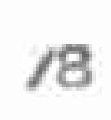18
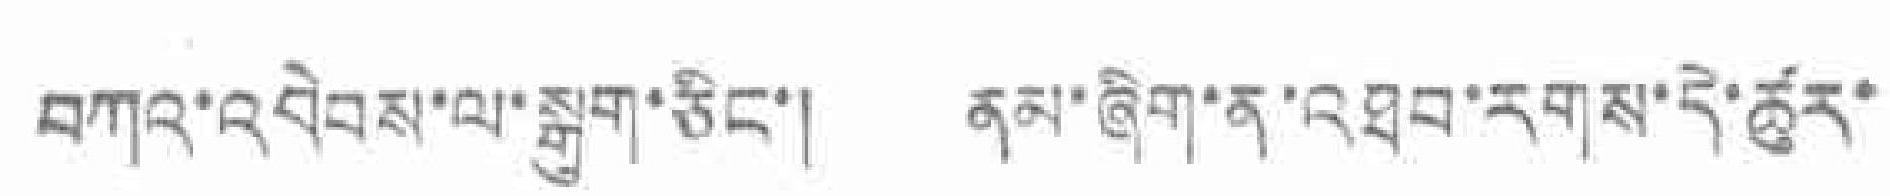བཀའ་འབེབས་ལ་སྒུག་ཅིང་། ནམ་ཞིག་ན་འཐབ་རགས་དེ་ཚུར་
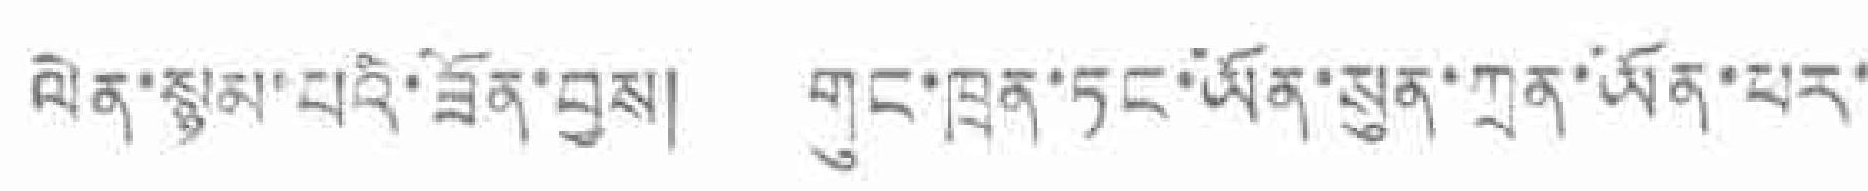ལེན་སྙམ་པའི་ཟོན་བྱས། གུང་ཁྲན་ཏང་ཡོན་སུན་ཀྲན་ཡོན་ཕར་
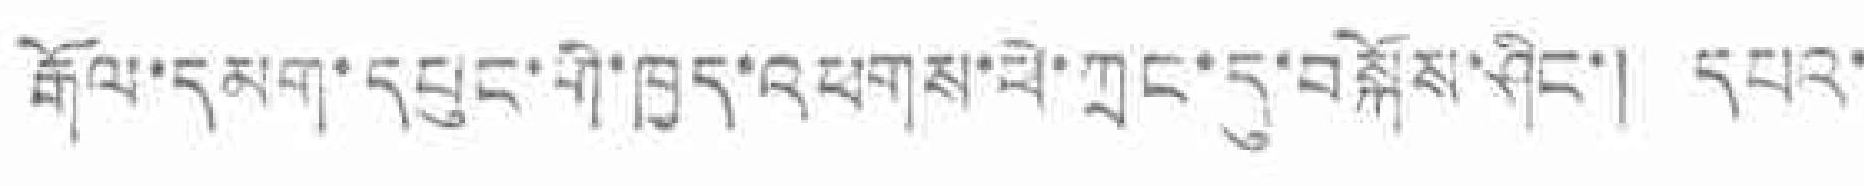རྒོལ་དམག་དཔུང་གི་ཁྱད་འཕགས་ཕེ་ཀྲང་དུ་བསྐོས་ཤིང་། དཔའ་
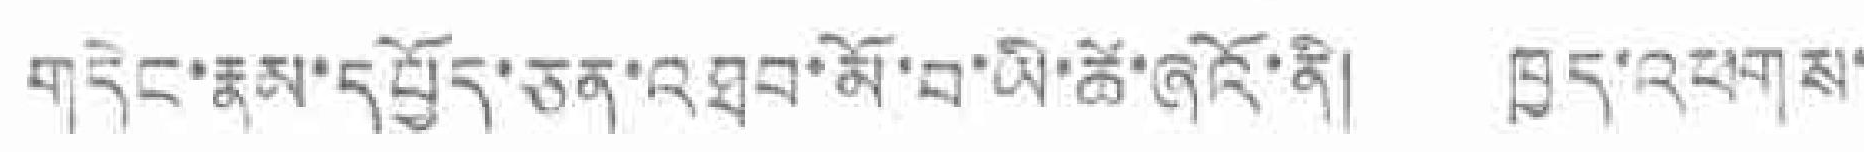གདེང་རྣམ་དཔྱོད་ཅན་འཐབ་མོ་བ་ཡི་ཚེ་ཞའོ་ནི། ཁྱར་འཕགས་
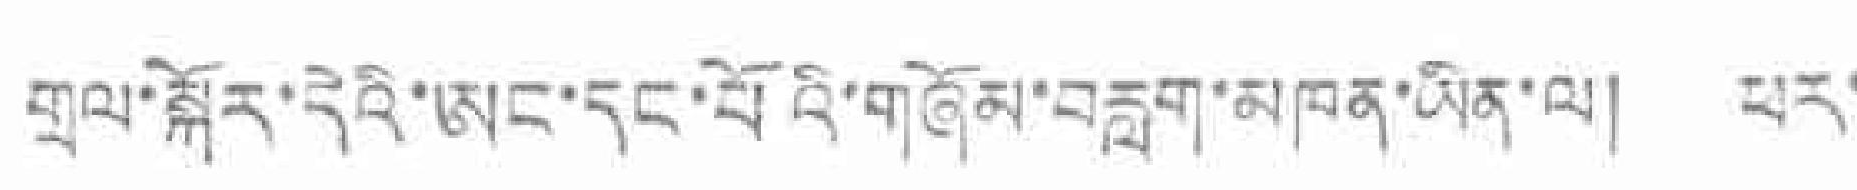གྲལ་སྐོར་དེའི་ཨང་དང་པོའི་གཞོམ་བརླག་མཁན་ཡིན་ལ། ཕར་
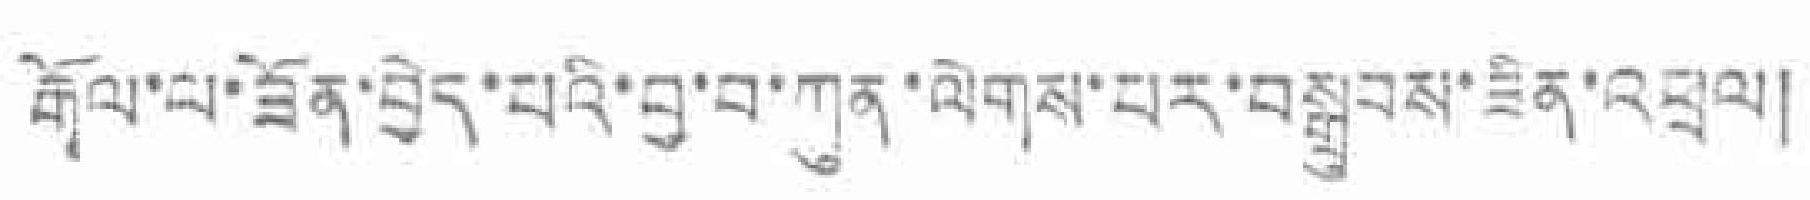རྒོལ་ལ་ཟོན་བྱེད་པའི་བྱ་བ་ཀུན་ལེགས་པར་བསྒྲུབས་ཟིན་འཕྲལ།
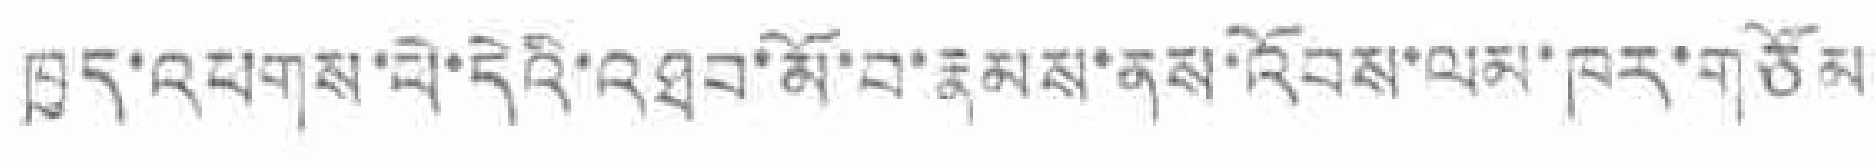ཁྱད་འཕགས་ཕེ་དེའི་འཐབ་མོ་བ་རྣམས་ནས་འོབས་ལམ་ཁར་གཙོམ
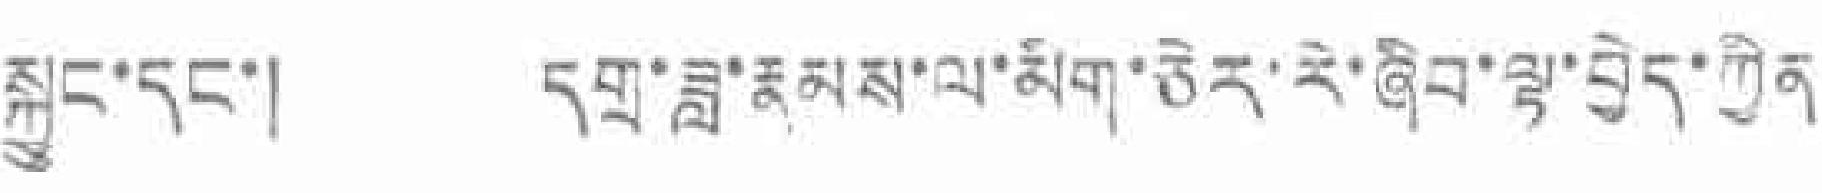སྐྱུང་དང་། དགྲ་ཟླ་རྣམས་ལ་མིག་ཅེར་རེ་ཞིབ་ལྟ་བྱེད་ཀྱིན་
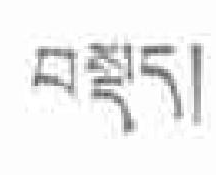བསྡད།
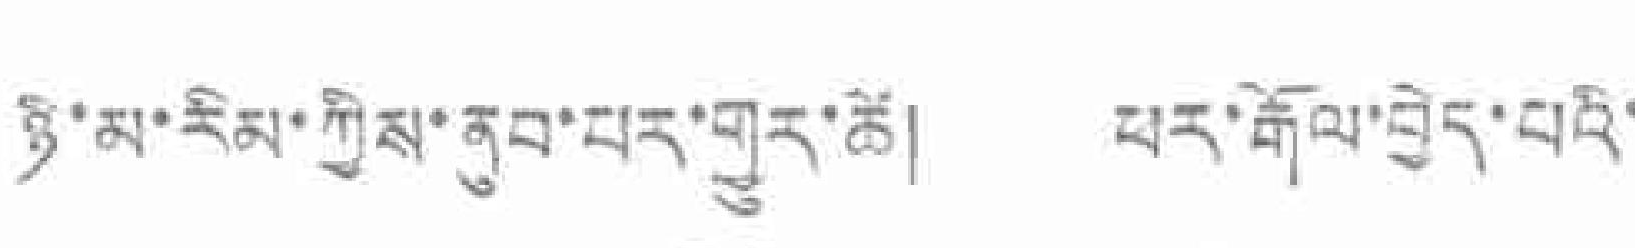ཉི་མ་རིམ་ཀྱིས་ནུབ་པར་གྱུར་ཚེ། ཕར་རྒོལ་བྱེད་པའི་
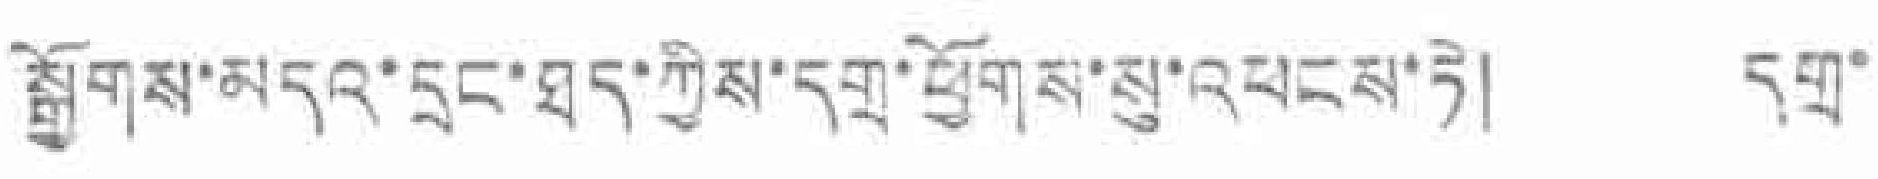སྒྱོགས་མདའ་དྲང་ཐད་ཀྱིས་དགྲ་ཕྱོགས་སུ་འཕངས་ཏེ། དགྲ་
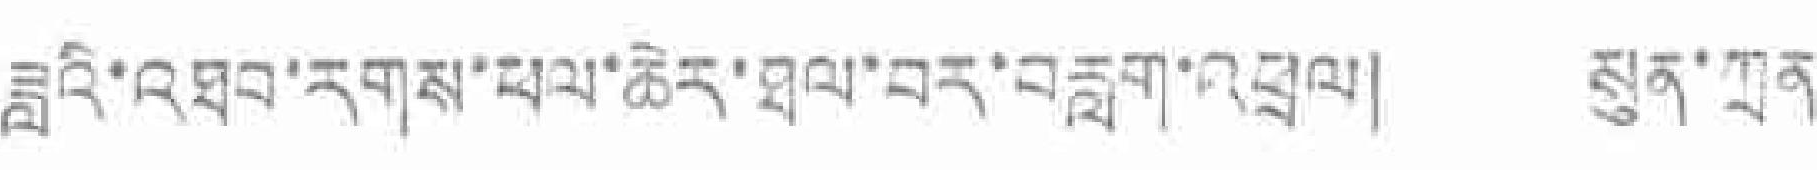ཟླའི་འཐབ་དགས་ཕལ་ཆེར་ཐལ་བར་བརླག་འཕྲལ། སུན་ཀྲན་
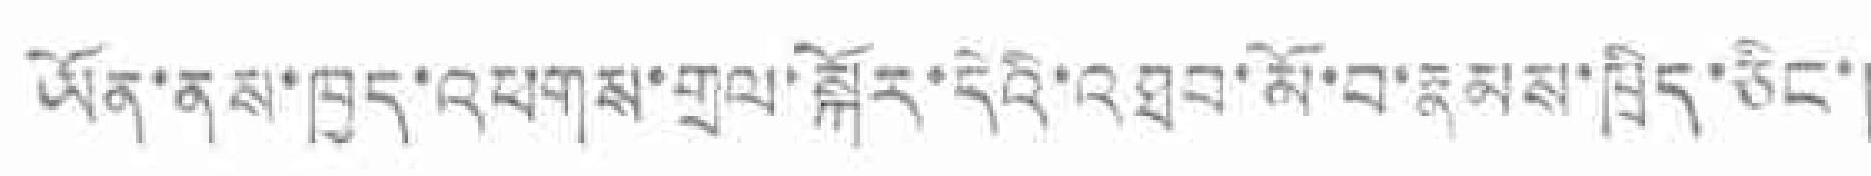ཡོན་ནས་ཁྱད་འཕགས་གྲལ་སྐོར་དེའི་འཐབ་མོ་བ་རྣམས་ཁྲིད་ཅོང་།
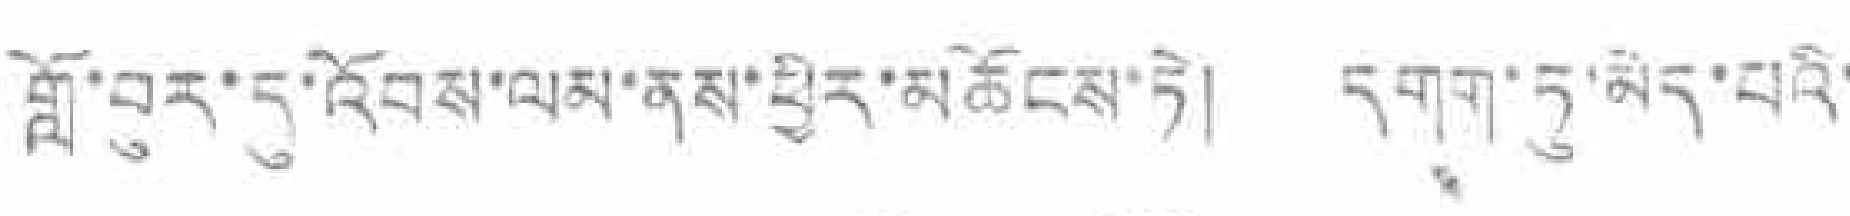གློ་བུར་དུ་འོབས་ལམ་ནས་ཕྱིར་མཆོངས་ཏེ། དགག་ཏུ་མད་པའི་
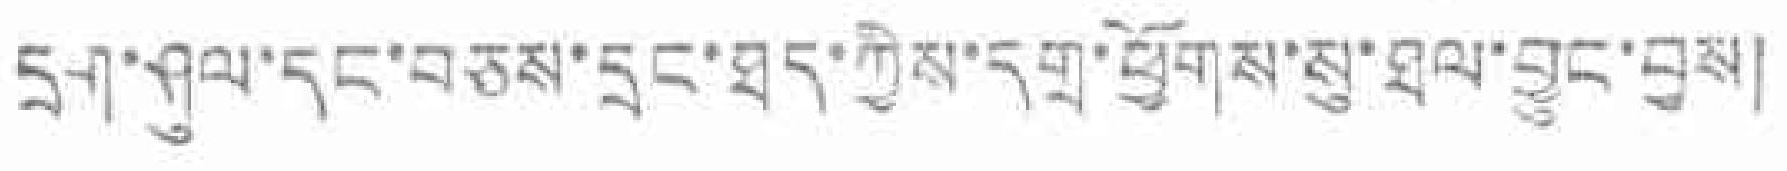དྲག་ཤུལ་དང་བཅས་དྲང་ཐད་ཀྱིས་དགྲ་ཕྱོགས་སུ་ཐལ་བྱུང་བྱས།
